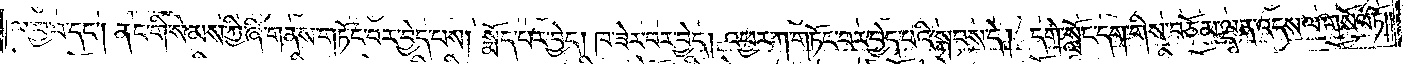ལ་བྱ་བ་དང༌། ནང་གི་སེམས་ཀྱི་ཞི་གནས་གཏོང་བར་བྱེད་པས། སྨོད་པར་བྱེད། ཁ་ཟེར་བར་བྱེད། འཕྱར་ཀ་གཏོང་བར་བྱེད་པའི་སྐབས་དེ། དགེ་སློང་དག་གིས་བཅོམ་ལྡན་འདས་ལ་གསོལ་ཏོ། །
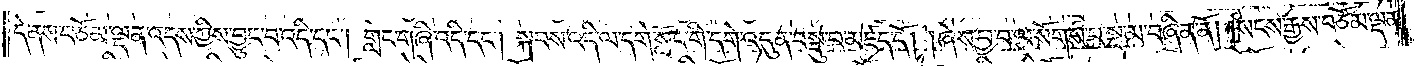དེ་ནས་བཅོམ་ལྡན་འདས་ཀྱིས་བྱུང་བ་འདི་དང༌། གླེང་གཞི་འདི་དང༌། སྐབས་འདི་ལ་དགེ་སློང་གི་དགེ་འདུན་བསྡུ་བ་མཛད་དོ། །ཞེས་བྱ་བ་ལ་སོགས་པ་སྔ་མ་བཞིན་ནོ། །སངས་རྒྱས་བཅོམ་ལྡན་
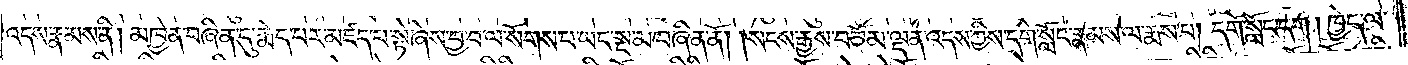འདས་རྣམས་ནི། མཁྱེན་བཞིན་དུ་རྨེད་པར་མཛད་པ་སྟེ་ཞེས་བྱ་བ་ལ་སོགས་པ་ཡང་སྔ་མ་བཞིན་ནོ། །སངས་རྒྱས་བཅོམ་ལྡན་འདས་ཀྱིས་དགེ་སློང་རྣམས་ལ་རྨས་པ། དགེ་སློང་དག །ཁྱེད་ལ་
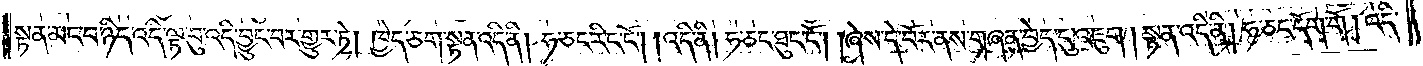སྟན་མང་བ་ཉིད་འདི་ལྟ་བུ་འདི་བྱུང་བར་གྱུར་ཏེ། ཁྱེད་ཅག་སྟན་འདི་ནི། ཧ་ཅང་རིང་ངོ༌། །འདི་ནི། ཧ་ཅང་ཐུང་ངོ༌། །ཞེས་དེ་བོར་ནས་གཞན་བྱེད་དུ་འཇུག །སྟན་འདི་ནི། ཧ་ཅང་དོག་གོ། འདི་
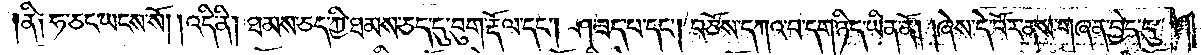ནི༑ ཧ་ཅང་ཡངས་སོ། །འདི་ནི། ཐམས་ཅད་ཀྱི་ཐམས་ཅད་དུ་བུག་རྡོལ་དང༌། ཤ་ཟད་པ་དང༌། བཅོས་དཀའ་བ་དག་ཉིད་ཡིན་ནོ། །ཞེས་དེ་བོར་ནས་གཞན་བྱེད་དུ་
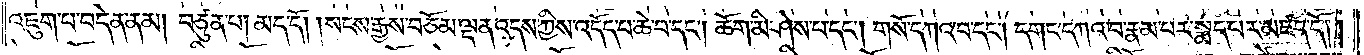འཇུག་པ་བདེན་ནམ། བཙུན་པ། མད་དོ། །སངས་རྒྱས་བཅོམ་ལྡན་འདས་ཀྱིས་འདོད་པ་ཆེ་བ་དང༌། ཆོག་མི་ཤེས་པ་དང༌། གསོ་དཀའ་བ་དང༌། དགང་དཀའ་བ་རྣམ་པར་སྨད་པར་མཛད་དོ། །
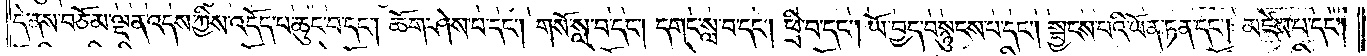དེ་ནས་བཅོམ་ལྡན་འདས་ཀྱིས་འདོད་པ་ཆུང་བ་དང༌། ཆོག་ཤེས་པ་དང༌། གསོ་སླ་བ་དང༌། དགང་སླ་བ་དང༌། ཕྲི་བ་དང༌། ཡོ་བྱད་བསྙུངས་པ་དང༌། སྦྱངས་པའི་ཡོན་ཏན་དང༌། མཛེས་པ་དང༌།
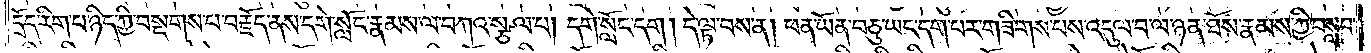དྲོད་རིག་པ་ཉིད་ཀྱི་བསྔགས་པ་བརྗོད་ནས་དགེ་སློང་རྣམས་ལ་བཀའ་སྩལ་པ། དགེ་སློང་དག །དེ་ལྟ་བས་ན། ཕན་ཡོན་བཅུ་ཡང་དག་པར་གཟིགས་པས་འདུལ་བ་ལ་ཉན་ཐོས་རྣམས་ཀྱི་བསླབ་
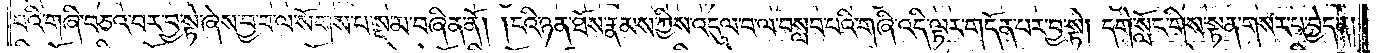པའི་གཞི་བཅའ་བར་བྱ་སྟེ་ཞེས་བྱ་བ་ལ་སོགས་པ་སྔ་མ་བཞིན་ནོ། །ངའི་ཉན་ཐོས་རྣམས་ཀྱིས་འདུལ་བ་ལ་བསླབ་པའི་གཞི་འདི་ལྟར་གདོན་པར་བྱ་སྟེ། དགེ་སློང་གིས་སྟན་གསར་པ་བྱེད་ན།
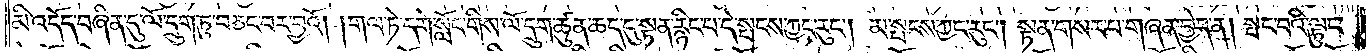མི་འདོད་བཞིན་དུ་ལོ་དྲུག་ཏུ་བཅང་བར་བྱའོ། །གལ་ཏེ་དགེ་སློང་གིས་ལོ་དྲུག་ཚུན་ཆད་དུ་སྟན་རྙིང་པ་དེ་སྤངས་ཀྱང་རུང༌། མ་སྤངས་ཀྱང་རུང༌། སྟན་གསར་པ་གཞན་བྱེད་ན། སྤང་བའི་ལྟུང་
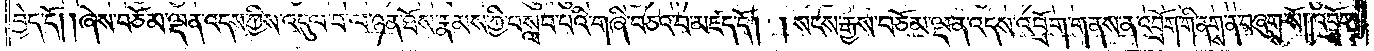བྱེད་དོ། །ཞེས་བཅོམ་ལྡན་འདས་ཀྱིས་འདུལ་བ་ལ་ཉན་ཐོས་རྣམས་ཀྱི་བསླབ་པའི་གཞི་བཅའ་བ་མཛད་དོ། །སངས་རྒྱས་བཅོམ་ལྡན་འདས་འབྲོག་གནས་ན་འབྲོག་གི་ནགས་ན་བཞུགས་སོ། །འབྲོག་
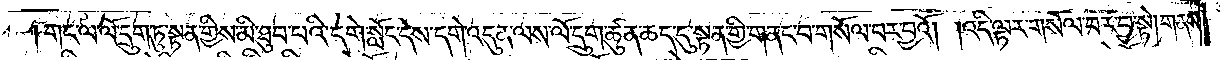གང་ལ་ལོ་དྲུག་ཏུ་སྟན་གྱིས་མི་ཐུབ་པའི་དགེ་སློང་དེས་དགེ་འདུན་ལས་ལོ་དྲུག་ཚུན་ཆད་དུ་སྟན་གྱི་གནང་བ་གསོལ་བར་བྱའོ། །འདི་ལྟར་གསོལ་བར་བྱ་སྟེ། གནས་
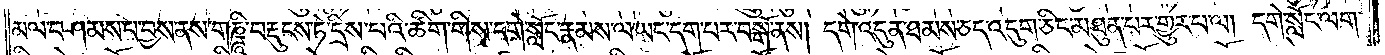མལ་བཤམས་པ་བྱས་ནས་གཎྜཱི་བརྡུངས་ཏེ་དྲིས་པའི་ཚིག་གིས་དགེ་སློང་རྣམས་ལ་ཡང་དག་པར་བསྒོ་ནས། དགེ་འདུན་ཐམས་ཅད་འདུག་ཅིང་མཐུན་པར་གྱུར་པ་ལ། དགེ་སློང་ལག་
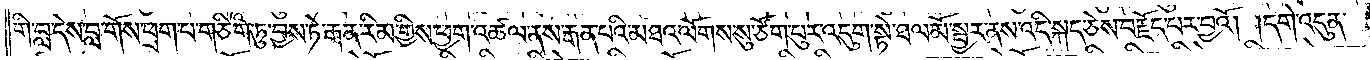གི་བླ་དེས་བླ་གོས་ཕྲག་པ་གཅིག་ཏུ་བྱས་ཏེ་རྒན་རིམ་གྱིས་ཕྱག་འཚལ་ནས་རྒན་པའི་མཐའ་ལོགས་སུ་ཙོག་པུར་འདུག་སྟེ་ཐལ་མོ་སྦྱར་ནས་འདི་སྐད་ཅེས་བརྗོད་པར་བྱའོ། །དགེ་འདུན་
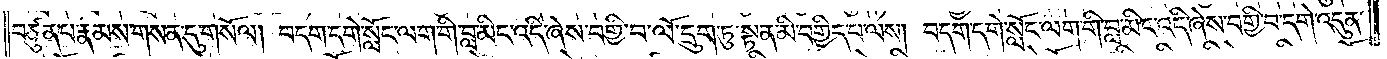བཙུན་པ་རྣམས་གསན་དུ་གསོལ། བདག་དགེ་སློང་ལག་གི་བླ་མིང་འདི་ཞེས་བགྱི་བ་ལོ་དྲུག་ཏུ་སྟན་མི་བགྱིད་པ་ལས། བདག་དགེ་སློང་ལག་གི་བླ་མིང་འདི་ཞེས་བགྱི་བ་དགེ་འདུན་
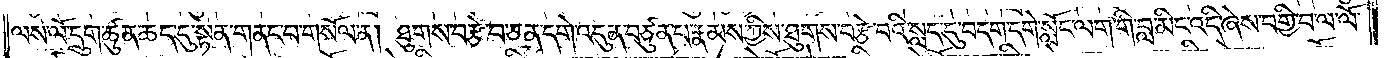ལས་ལོ་དྲུག་ཚུན་ཆད་དུ་སྟན་གནང་བ་གསོལ་ན། ཐུགས་བརྩེ་བ་ཅན་དགེ་འདུན་བཙུན་པ་རྣམས་ཀྱིས་ཐུགས་བརྩེ་བའི་སླད་དུ་བདག་དགེ་སློང་ལག་གི་བླ་མིང་འདི་ཞེས་བགྱི་བ་ལ་ལོ་
